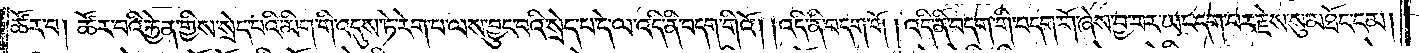ཚོར་བ། ཚོར་བའི་རྐྱེན་གྱིས་སྲེད་པའི་མིག་གི་འདུས་ཏེ་རེག་པ་ལས་བྱུང་བའི་སྲེད་པ་དེ་ལ་འདི་ནི་བདག་གིའོ། །འདི་ནི་བདག་གོ །འདི་ནི་བདག་གི་བདག་གོ་ཞེས་བྱ་བར་ཡང་དག་པར་རྗེས་སུ་མཐོང་ངམ།
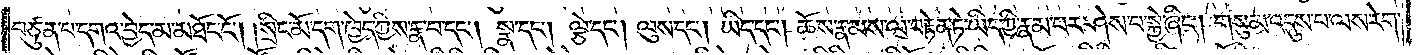བཙུན་པ་དགའ་བྱེད་མ་མཐོང་ངོ༌། །སྲིང་མོ་དག་ཁྱེད་ཀྱིས་རྣ་བ་དང༌། སྣ་དང༌། ལྕེ་དང༌། ལུས་དང༌། ཡིད་དང༌། ཆོས་རྣམས་ལ་བརྟེན་ཏེ་ཡིད་ཀྱི་རྣམ་པར་ཤེས་པ་སྐྱེ་ཞིང༌། གསུམ་འདུས་པ་ལས་རེག་
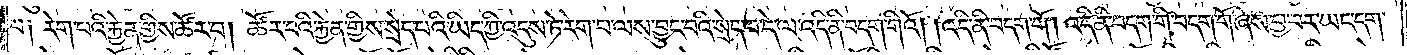པ། རེག་པའི་རྐྱེན་གྱིས་ཚོར་བ། ཚོར་བའི་རྐྱེན་གྱིས་སྲེད་པའི་ཡིད་ཀྱི་འདུས་ཏེ་རེག་པ་ལས་བྱུང་བའི་སྲེད་པ་དེ་ལ་འདི་ནི་བདག་གིའོ། །འདི་ནི་བདག་གོ །འདི་ནི་བདག་གི་བདག་གོ་ཞེས་བྱ་བར་ཡང་དག་
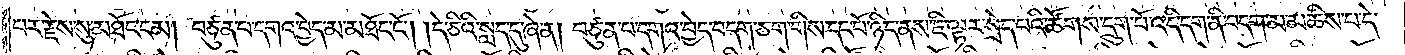པར་རྗེས་སུ་མཐོང་ངམ། བཙུན་པ་དགའ་བྱེད་མ་མཐོང་ངོ༌། །དེ་ཅིའི་སླད་དུ་ཞེ་ན། བཙུན་པ་དགའ་བྱེད་བདག་ཅག་གིས་དང་པོ་ཉིད་ནས་ཇི་ལྟར་སྲེད་པའི་ཚོགས་དྲུག་པོ་འདི་དག་ནི་བདག་མ་མཆིས་པ་དེ་
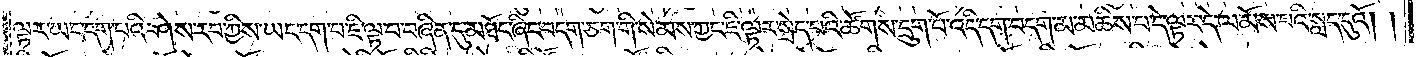ལྟར་ཡང་དག་པའི་ཤེས་རབ་ཀྱིས་ཡང་དག་པ་ཇི་ལྟ་བ་བཞིན་དུ་མཐོང་ཞིང་བདག་ཅག་གི་སེམས་ཀྱང་ཇི་ལྟར་སྲེད་པའི་ཚོགས་དྲུག་པོ་འདི་དག་བདག་མ་མཆིས་པ་དེ་ལྟར་དེ་ལ་མོས་པའི་སླད་དུའོ། །
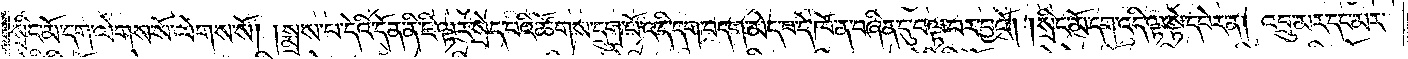སྲིང་མོ་དག་ལེགས་སོ་ལེགས་སོ། །སྨྲས་པ་དེའི་དོན་ནི་ཇི་ལྟར་སྲེད་པའི་ཚོགས་དྲུག་པོ་འདི་དག་བདག་མེད་པ་དེ་ཁོ་ན་བཞིན་དུ་བལྟ་བར་བྱའོ། །སྲིང་མོ་དག་འདི་ལྟ་སྟེ་དཔེར་ན། འབྲུ་མར་དང་མར་
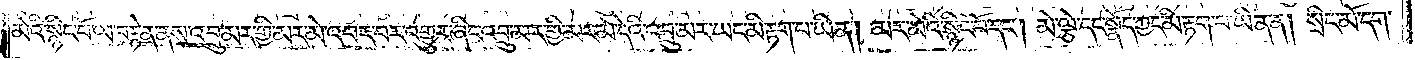མེའི་སྙིང་པོ་ལ་བརྟེན་ནས་འབྲུ་མར་གྱི་མར་མེ་འབར་བར་འགྱུར་ཞིང་འབྲུ་མར་གྱི་མར་མེ་དེའི་འབྲུ་མར་ཡང་མི་རྟག་པ་ཡིན། མར་མེའི་སྙིང་པོ་དང༌། མེ་ལྕེ་དང་སྣོད་ཀྱང་མི་རྟག་པ་ཡིན་ན། སྲིང་མོ་དག་
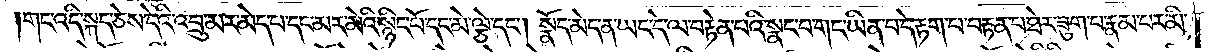གང་འདི་སྐད་ཅེས་དེའི་འབྲུ་མར་མེད་པ་དང་མར་མེའི་སྙིང་པོ་དང་མེ་ལྕེ་དང༌། སྣོད་མེད་ན་ཡང་དེ་ལ་བརྟེན་པའི་སྣང་བ་གང་ཡིན་པ་དེ་རྟག་པ་བརྟན་པ་ཐེར་ཟུག་པ་རྣམ་པར་མི་
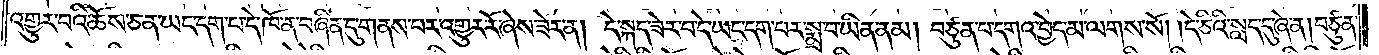འགྱུར་བའི་ཆོས་ཅན་ཡང་དག་པ་དེ་ཁོ་ན་བཞིན་དུ་གནས་པར་འགྱུར་རོ་ཞེས་ཟེར་ན། དེ་སྐད་ཟེར་བ་དེ་ཡང་དག་པར་སྨྲ་བ་ཡིན་ནམ། བཙུན་པ་དགའ་བྱེད་མ་ལགས་སོ། །དེ་ཅིའི་སླད་དུ་ཞེ་ན། བཙུན་
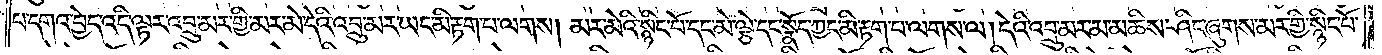པ་དགའ་བྱེད་འདི་ལྟར་འབྲུ་མར་གྱི་མར་མེ་དེའི་འབྲུ་མར་ཡང་མི་རྟག་པ་ལགས། མར་མེའི་སྙིང་པོ་དང་མེ་ལྕེ་དང་སྣོད་ཀྱང་མི་རྟག་པ་ལགས་ལ། དེའི་འབྲུ་མར་མ་མཆིས་ཤིང་ཞུགས་མར་གྱི་སྙིང་པོ་
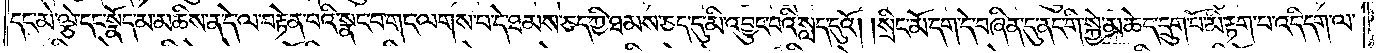དང་མེ་ལྕེ་དང་སྣོད་མ་མཆིས་ན་དེ་ལ་བརྟེན་པའི་སྣང་བ་གང་ལགས་པ་དེ་ཐམས་ཅད་ཀྱི་ཐམས་ཅད་དུ་མི་འབྱུང་བའི་སླད་དུའོ། །སྲིང་མོ་དག་དེ་བཞིན་དུ་ནང་གི་སྐྱེ་མཆེད་དྲུག་པོ་མི་རྟག་པ་འདི་དག་ལ་
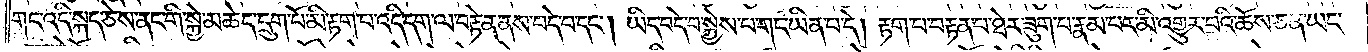གང་འདི་སྐད་ཅེས་ནང་གི་སྐྱེ་མཆེད་དྲུག་པོ་མི་རྟག་པ་འདི་དག་ལ་བརྟེན་ནས་བདེ་བ་དང༌། ཡིད་བདེ་བ་སྐྱེས་པ་གང་ཡིན་པ་དེ། རྟག་པ་བརྟན་པ་ཐེར་ཟུག་པ་རྣམ་པར་མི་འགྱུར་བའི་ཆོས་ཅན་ཡང་
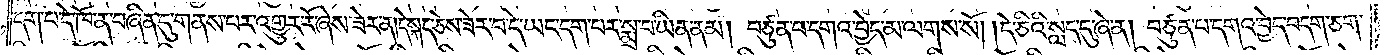དག་པ་དེ་ཁོ་ན་བཞིན་དུ་གནས་པར་འགྱུར་རོ་ཞེས་ཟེར་ན། དེ་སྐད་ཅེས་ཟེར་བ་དེ་ཡང་དག་པར་སྨྲ་བ་ཡིན་ནམ། བཙུན་པ་དགའ་བྱེད་མ་ལགས་སོ། །དེ་ཅིའི་སླད་དུ་ཞེ་ན། བཙུན་པ་དགའ་བྱེད་བདག་ཅག་
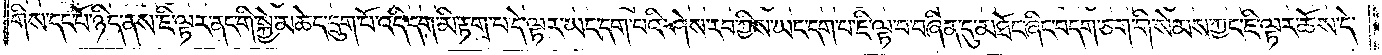གིས་དང་པོ་ཉིད་ནས་ཇི་ལྟར་ནང་གི་སྐྱེ་མཆེད་དྲུག་པོ་འདི་དག་མི་རྟག་པ་དེ་ལྟར་ཡང་དག་པའི་ཤེས་རབ་ཀྱིས་ཡང་དག་པ་ཇི་ལྟ་བ་བཞིན་དུ་མཐོང་ཞིང་བདག་ཅག་གི་སེམས་ཀྱང་ཇི་ལྟར་ཆོས་དེ་
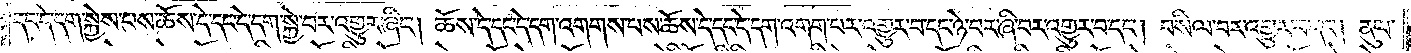དང་དེ་དག་སྐྱེས་པས་ཆོས་དེ་དང་དེ་དག་སྐྱེ་བར་འགྱུར་ཞིང༌། ཆོས་དེ་དང་དེ་དག་འགགས་པས་ཆོས་དེ་དང་དེ་དག་འགག་པར་འགྱུར་བ་དང་ཉེ་བར་ཞི་བར་འགྱུར་བ་དང༌། བསིལ་བར་འགྱུར་བ་དང༌། ནུབ་
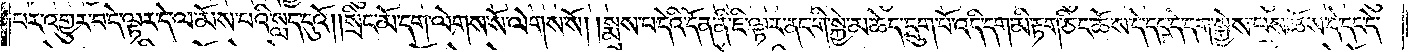པར་འགྱུར་པ་དེ་ལྟར་དེ་ལ་མོས་པའི་སླད་དུའོ། །སྲིང་མོ་དག་ལེགས་སོ་ལེགས་སོ། །སྨྲས་པ་དེའི་དོན་ནི་ཇི་ལྟར་ནང་གི་སྐྱེ་མཆེད་དྲུག་པོ་འདི་དག་མི་རྟག་ཅིང་ཆོས་དེ་དང་དེ་དག་སྐྱེས་པས་ཆོས་དེ་དང་དེ་
